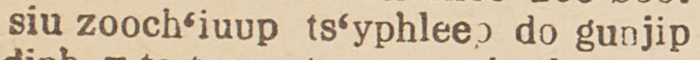siu zooch'iuup ts'yphleep do gunjip
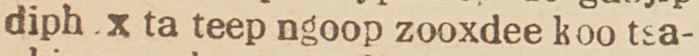diph x ta teep ngoop zooxded koo tsa-
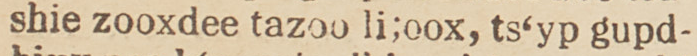shie zooxdee tazoo li;oox, ts'yp gupd-
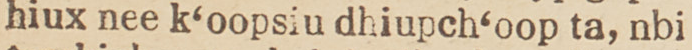hiux nee k'oopsiu dhiupch'oop ta, nbi
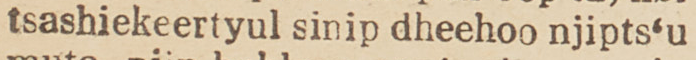tsashiekeertyul sinip dheehoo njipts'u
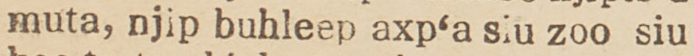muta, njip buhleep axp'a siu zoo siu
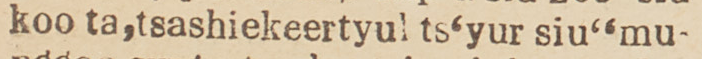koo ta,tsashiekeertyul ts'yur siu''mu-
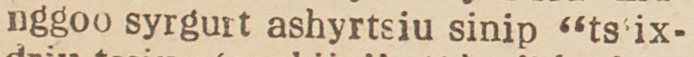nggoo syrgurt ashyrtsiu sinip "ts'ix-
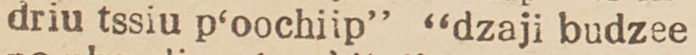driu tssiu p'oochiip" "dzaji budzee
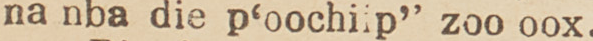na nba die p'oochiip" zoo oox.
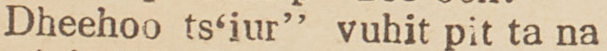Dheehoo ts'jur'' vuhit pit ta na
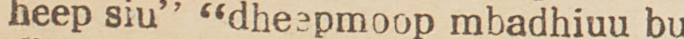heep siu'' "dheepmoop mbadhiuu bu
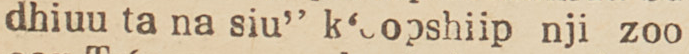dhiuu ta na siu'' k'oopshiip nji zoo
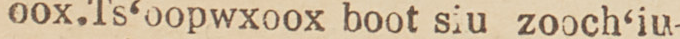oox. Ts'oopwxoox boot siu zooch'iu.
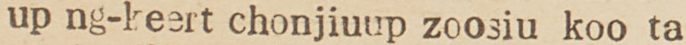up ng-keert chonjiuup zoosiu koo ta
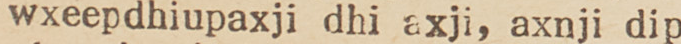wxeepdhiupaxji dhi axji, axnji dip
